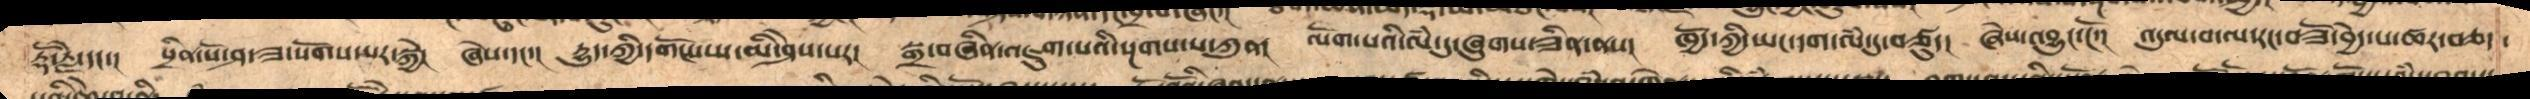རྡོ་རྗེ་དང་།   སྲིན་པོ་ཤ་ཟ་སོགས་པར་སྐྱེ།   ཞེས་དང་།   དྱུད་ཀྱི་དགོངས་པ་མི་ཤེས་པར།   སྒྲ་བཞིན་འཇུག་པའི་སྔགས་པ་ཀུན།  ལོག་པའི་ལཾ་དུ་ཞུགས་ཟིན་ནས།   ཁྱོད་ཀྱི་ཡང་དག་ལཾ་དུ་བཙུད།  ཞེས་འབྱུང་ངོ་།   འདུལ་བ་ལ་རང་བཟོ་བྱེད་པ་ཚར་བཅད་
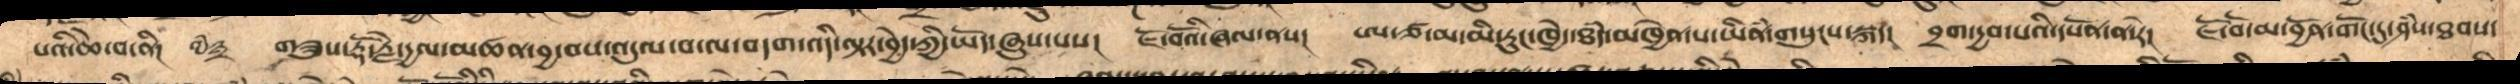པའི་ཆེ་བ་ནི། ༧༣ གཟུས་རྡོ་རྗེ་དྱལ་མཚན་བྱ་བས་འདུལ་བ་ལ་བདག་འདི་ལྟར་བྱེད་ཀྱི་ཡོད་ཞུས་པས།  ཇོ་བོའི་ཞལ་ནས།  ཨ་ཙ་མ་མི་རུང་ཁྱེད་ཐཾད་མཁྱེན་པ་ཡིནཾ་གསུངས་སྐད།  བྲག་དྱབ་བའི་དཔོན་ན་རེ།  ཇོ་བོ་མ་བྱོན་གོང་དུ་ཤཾས་ཐབས་
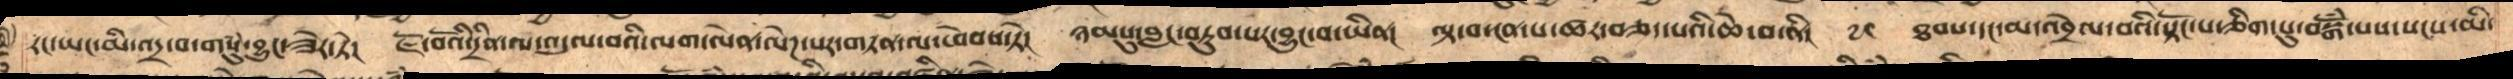རང་ཡང་མི་འདྲ་བ་གསུཾ་བྱུང་ཟེར་ཏེ།  ཇོ་བོའི་དྲིན་ལ་འདུལ་བའི་ལག་ལེན་ལེཌ་པར་གཏན་ལ་ཕེབས་ཏེ།   ཉམསུ་བླང་བཏུབ་པར་བྱུང་བ་ཡིན།   ལྟ་བ་ངན་པ་ཚར་བཅད་པའི་ཆེ་བ་ནི།  ༧༤ ཐབས་དང་མ་འབྲེལ་བའི་སྟོང་པ་ཅིག་པུ་བསྒོཾས་པས་སངས་མི་
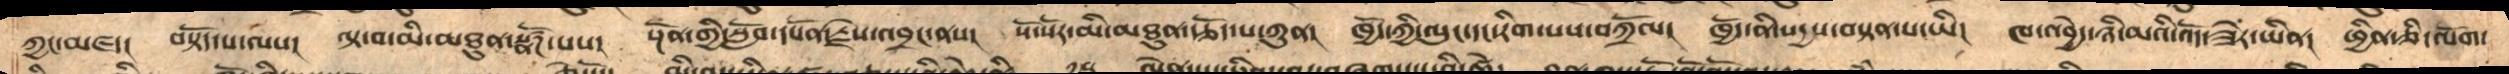ཀྱང་མཛད།  བསྟོད་པ་ལས།  ལྟ་བ་མི་མཐུན་སྣཚོཌ་སཔ།  སྔོན་གྱི་སློབ་དཔོན་རྗེས་འབྲང་ནས།  སོ་སོར་མི་མཐུན་རྩོད་པ་ཀུན།  ཁྱོད་ཀྱི་ལུང་དང་རིག་པས་བཀྲོལ།  ཁྱོད་ནི་སདྱས་བསྟན་པ་ཡི།  ཁ་འབྱེད་ཉི་མའི་འོད་ཟེར་ཡིན།  ཕྱིན་ཅི་ལོག་
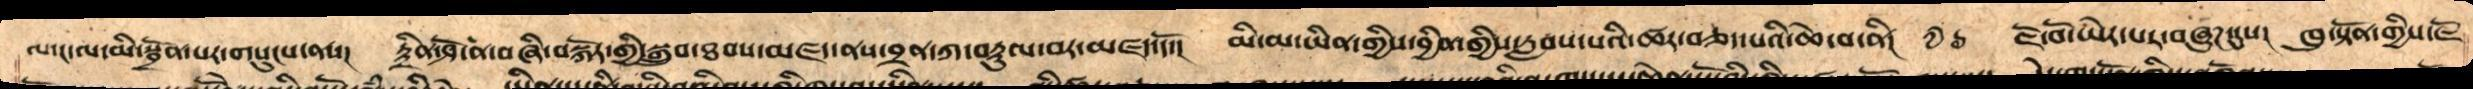ལ་ང་ལ་མི་སྦྲོན་པ་གསུངས་ནས།   རྟྲྲིན་ཤོ་ན་བཞི་བསྐོར་གྱི་སྒྲུབ་ཐབས་མཛད་ནས་བྲན་ཀ་བརྟུལ་བར་མཛད་དོ་།  མི་མ་ཡིན་གྱིས་བྱིན་གྱིས་རླབས་པའི་ཚར་བཅད་པའི་ཆེ་བ་ནི།  ༧༦ ཇོ་བོ་ཡེར་པར་བཞུཌ་དུས།   ཁུ་སྟོན་གྱིས་ཇོ
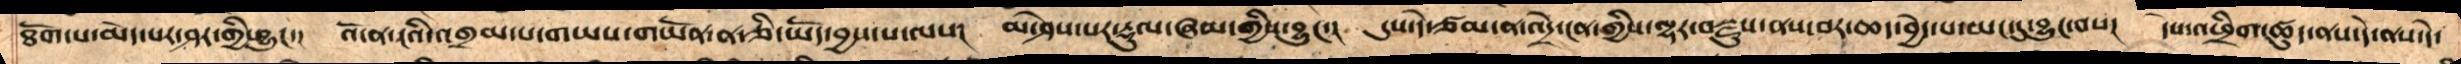ཐོག་པ་མེད་པར་ཤར་གྱིས་བྱུང་།  འོ་ན་ངའི་འགྲམ་པ་གཡས་གཡོན་ན་ཅི་ཡོད་བྱས་པ་ལས།  མ་ཤེས་པར་རྡུལ་ཞམ་གྱིས་བྱུང་།  དུས་དེ་ཙམ་ན་འདྲེ་ངན་གྱིས་ལྷར་བསྫུས་ནས་བར་ཆད་བྱེད་པ་མང་དུ་བྱུང་བས།  དེས་འཕྲིག་ཚུད་ནས་དེ་ནས་དེ་
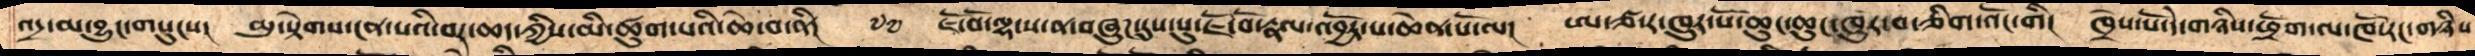འདྲ་མ་བྱུང་གསུངས།  མུ་སྟེགས་ངན་པའི་བར་ཆད་ཀྱིས་མི་ཚུགས་པའི་ཆེ་བ་ནི།  ༧༧  ཇོ་བོ་ལྷ་ས་ན་བཞུཌ་དུས་སུ་ཇོ་བོ་རྣལ་འབྱོར་པ་ཆེན་པོ་ལ།།  ཨ་ཙ་ར་ཁུར་པོ་ཆུང་ཆུང་ཁུར་བ་ཅིག་འོང་གི།  ཁྲེས་པོ་དེ་གཉིས་ཕྲོག་ལ་ཁོ་རང་གཉིས
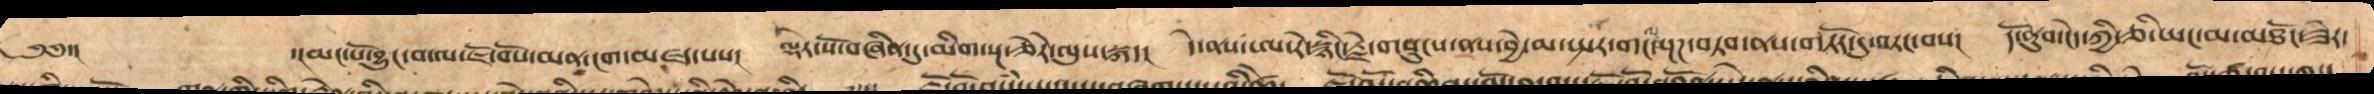༄༅་།     ་།མང་པོ་བྱུང་བ་ལ་ཇོ་བོས་མན་ངག་མཛད་པས།  ལྡིར་སོ་བཞིན་དུ་མིག་སྔ་ཅེརེ་ལུས་སྐད།  དེ་ནས་ཨ་རེ་སྙིང་རྗེ་བ་བུངས་ནས་བྱེ་མ་སྤར་བ་གང་ལ་སྔཌ་བཏབ་ནས་གཏོར་དུ་བཏང་བས།  དོ་ནུབ་ངེད་ཀྱི་ཅི་ཡང་མ་མཐོང་ཟེར་
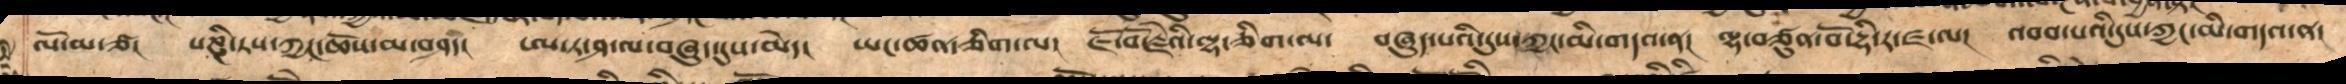ལོ་མ་ཙ། པཎྜི་ཏས་ཀྱང་ཆོས་མ་བཤད། ཨ་ཏ་ཤ་ལ་བཞུད་དུས་མེད། ཡང་ཚན་ཅིག་ལ། ཇོ་བོ་རྗེའི་ལྷ་གཅིག་ལ། བཞུད་པའི་དུས་ཀྱང་མི་གདའ་ན། ལྷ་བཙུན་བོ་དྷི་ར་ཛ་ལ། འབབ་པའི་དུས་ཀྱང་མི་གདའ་ན།
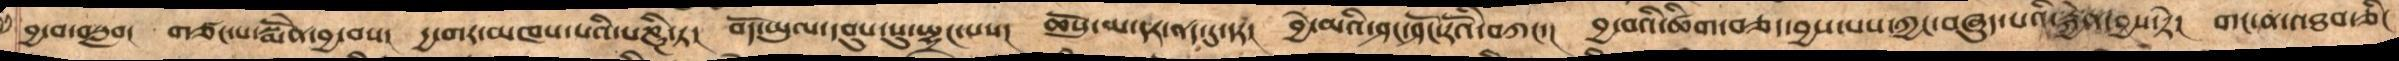བྱ་བ་བསླབ།  གཙང་པ་སྨོནེ་བྱ་བས།  དྱ་གར་མཁས་པའི་པཎྜི་ཏ།  བོད་ཡུལ་དབུས་སུ་སྤྲང་པས།  ཆོསུ་མ་དར་ནད་དུ་དར།  བྱེ་མའི་ཤང་ཤོང་རོའི་བཀང་།  བྱ་བའི་ཚིག་བཅད་བྱས་པས་ཀྱང་བཞུད་པའི་རྐྱེན་བྱས་ཏེ།  གང་ན་འཐབ་ཅིང་
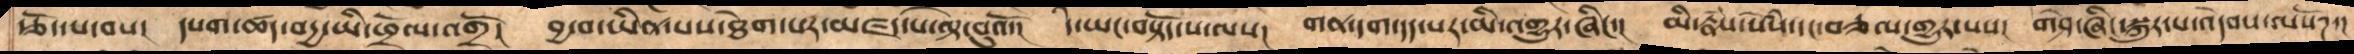རྩོད་པ་བས།   དཔག་ཚད་བདྱ་ཡི་ཕྲོལ་འགྲོ།   བྱ་བ་ཡིན་པས་ཐེགས་པར་མཛད་པ་ལྟ་བུའོ།   དེ་ཡང་བསྟོད་པ་ལས།  གན་དག་དད་པར་མི་འགྱུར་ཞིང་།   མི་རྣཾས་སེམས་དང་བཅལ་གྱུར་པས།  གཤེ་ཞིང་སྐུར་པ་འདེབས་ལསོཌ་།
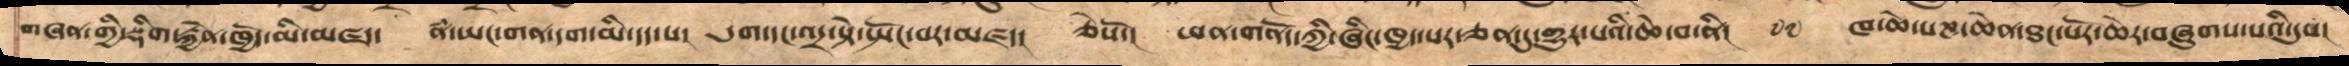གཞན་གྱི་སྡིག་རྐྱེན་ཁྱོད་མི་མཛད།   ནཾ་ཡང་གན་དག་མི་དད་པ།   དུག་དང་འདྲ་སྟེ་སྤོང་བར་མཛད།  ཅེསོ་།  ཕན་གནོད་ཀྱི་ཞིང་ཁྱད་པར་ཅན་དུ་གྱུར་པའི་ཆེ་བ་ནི།  ༧༩  ཁ་ཆེ་པཎ་ཆེན་ཐང་པོར་ཆེར་བཞུགས་པའི་དུས།
